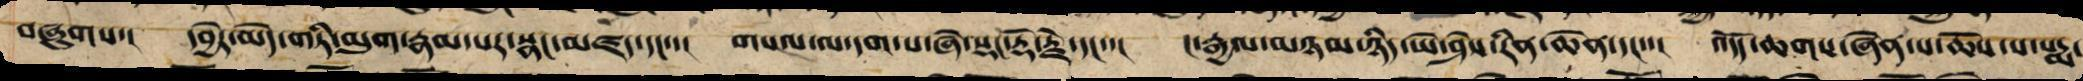བཞུགས་། དབྱེར་མེད་གཏི་མུག་རྣམ་པར་སྣང་མཛད་དང་་། གསལ་ལ་དག་པ་ཞེ་སྡང་རྡོ་རྗེ་དང་་། ང་རྒྱལ་མཉམ་ཉིད་ཡེ་ཤེས་རིན་ཆེན་དང་་། འདོད་ཆགས་ཞེན་པ་ཆོས་པ་པདྨ་
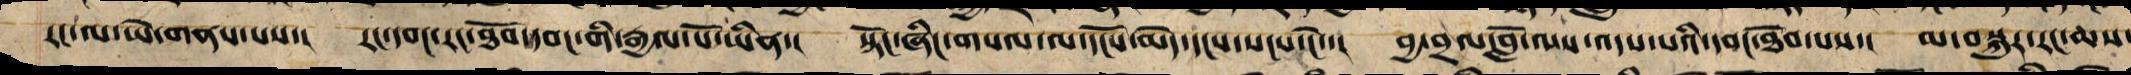རང་ལ་ཡེ་གནས་པས་། རང་དབང་རང་ཐོབ་དབང་གི་རྒྱལ་པོ་ཡིན་། སྟོང་ཞིང་གསལ་ལ་དངོས་མེད་དྭངས་སང་ངེ་་། བྱ་བྲལ་བློ་ལས་འདས་པའི་དབང་ཐོབ་པས་། མ་བསྐུར་རང་ཆས་
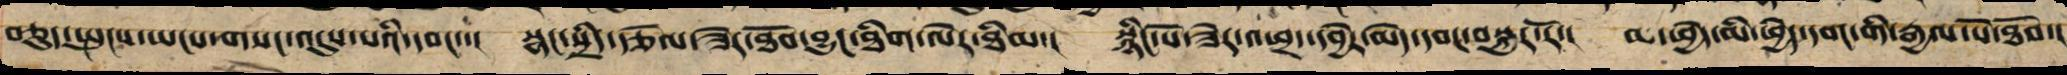བཅུད་སྤུངས་ཡངས་གསང་འདུས་པའི་དབང་་། སྣང་སྲིད་རྩོལ་ཟེར་ཐོབ་བྱུང་ཐིག་ལེར་ཐིམ་། སྙིང་པོ་ཟེར་འཕྲད་དབྱེར་མེད་དབང་བསྐུར་རོ་། མ་ཕྱེད་མི་ཕྱེད་དབང་གི་རྒྱལ་པོ་ཐོབ་།
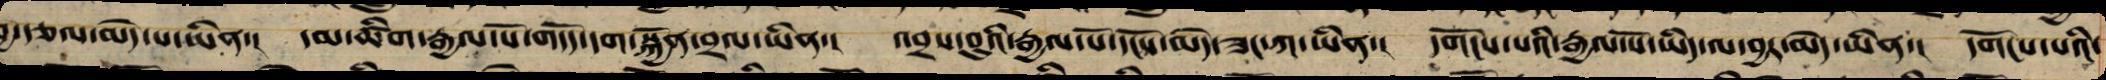བྱ་རྩལ་མེད་པ་ཡིན་། དམ་ཚིག་རྒྱལ་པོ་གདོད་དག་སྐྱོན་བྲལ་ཡིན་། འབྲས་བུའི་རྒྱལ་པོ་དངོས་མེད་ཟང་ཀ་ཡིན་། དགོངས་པའི་རྒྱལ་པོ་ཡིད་ལ་མེད་ཡིན་། དགོངས་པའི་
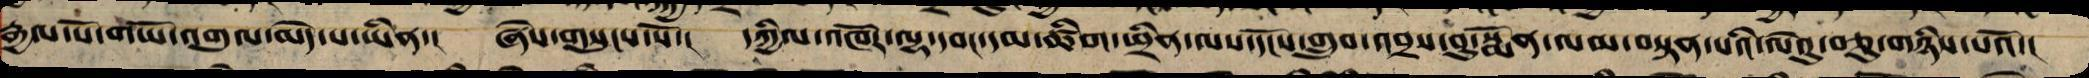རྒྱལ་པོ་ཡིད་ལ་བྱར་མེད་ཡིན་། ཞེས་གསུངས་སོ་། དཀྱིལ་འཁོར་ལྷ་དབང་དམ་ཚིག་ཕྲིན་ལས་དངོས་གྲུབ་འབྲས་བུ་སྨོན་ལམ་བསྟན་པའི་ལེའུ་སྟེ་བཅུ་གཉིས་པའོ་།།
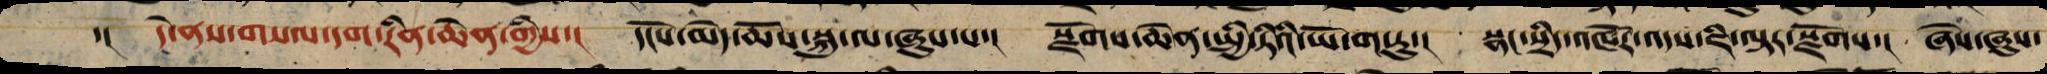་།། དེ་ནས་གསལ་དག་རིན་ཆེན་གྱིས་། དངོས་མེད་ཆོས་སྐུ་ལ་ཞུས་པ་། སྫོགས་ཆེན་སྤྱི་ཏིའི་ཡོ་ག་རུ་། སྣང་སྲིད་འཁོར་འདས་ཇི་ལྟར་སྫོགས་། ཞེས་ཞུས་
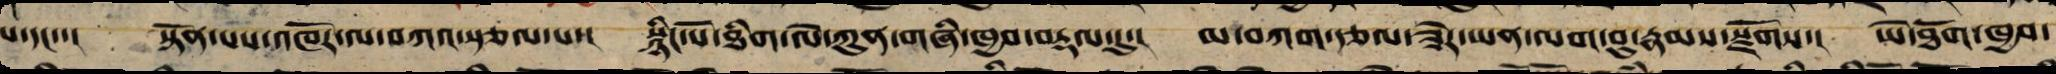པ་དང་་། སྟོན་པས་འཁོར་ལ་བཀའ་སྩལ་པ་། སྙིང་པོ་ཐིག་ལེ་ཀུན་གཞི་ཁྱབ་བརྡལ་་དུ། མ་བཀག་རྩལ་ཟེར་ཡན་ལག་བུ་རྣམས་སྫོགས་། ཡེ་ཐོག་ཁྱབ་
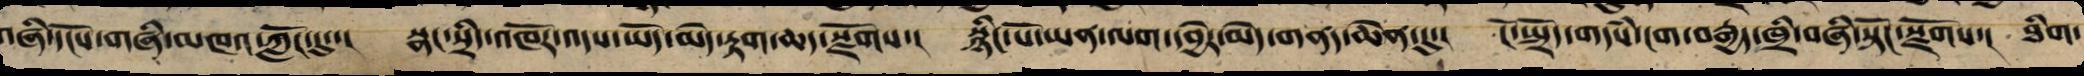གཞི་དངོས་གཞི་མཁའ་ཀློང་དུ་། སྣང་སྲིད་འཁོར་འདས་ཡོད་མེད་རྟག་ཆད་སྫོགས་། སྙིང་པོ་ཡན་ལག་དབྱེར་མེད་གནད་ཆེན་དུ་། ངོ་སྤྲོད་གདཾས་ངག་བརྒྱད་ཁྲི་བཞི་སྟོང་སྫོགས་། ཐིག་
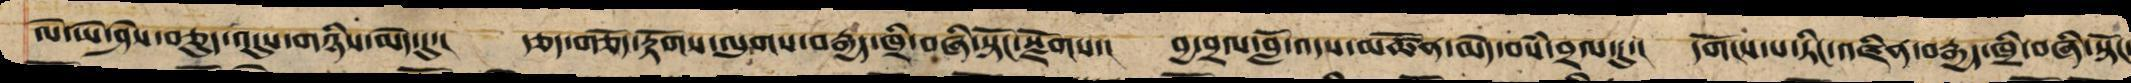ལེ་ཡེ་ཤེས་བཅུད་འདུས་གཉིས་མེད་དུ་། རྩད་གཅོད་རྟོགས་ལུགས་བརྒྱད་ཁྲི་བཞི་སྟོང་སྫོགས་། བྱ་བྲལ་བློ་འདས་མཚོན་མེད་བསཾ་བྲལ་དུ་། དགོངས་པ་ཏིང་འཛིན་བརྒྱད་ཁྲི་བཞི་སྟོང་
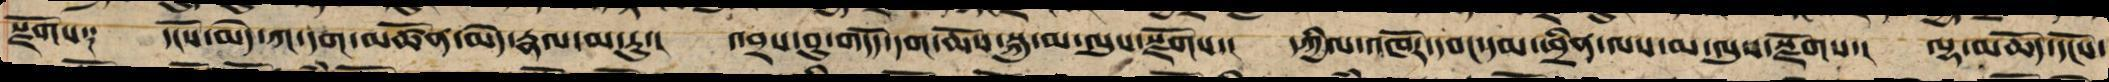སྫོགས༑ དངོས་མེད་ཀ་དག་མཚོན་མེད་རྣལ་མ་རུ་། འབྲས་བུ་གདོད་དག་ཆོས་སྐུ་མ་ལུས་སྫོགས་། དཀྱིལ་འཁོར་དབང་དམ་ཕྲིན་ལས་མ་ལུས་སྫོགས་། ལྷ་མཆོད་དངོས་
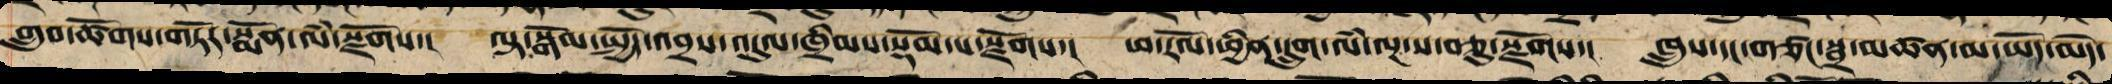གྲུབ་ཚོགས་གཏོར་སྨོན་ལཾ་སྫོགས་། ལྟ་སྒོམ་སྤྱོད་འབྲས་འདུལ་ཁྲིམས་སྡོམ་པ་སྫོགས་། ཕ་རོལ་ཕྱིན་དྲུག་ལཾ་ལྔ་ས་བཅུ་སྫོགས་། ཁྲུས་དང་གཙང་སྦྲ་མཚན་མ་ཡོད་མེད་
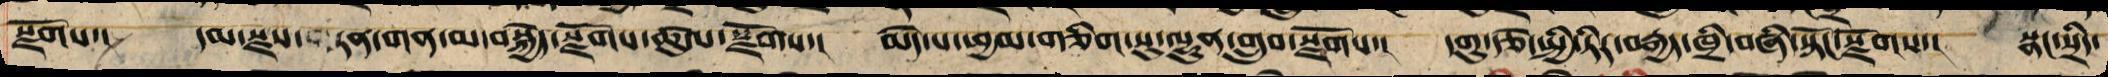སྫོགས་། དམ་སྫས་ཏན་གན་མ་བསྐྱེད་སྫོགས་ཚུལ་སྫོགས་། མེད་པ་ཕྱལ་པ་གཅིག་པུ་ལྷུན་གྲུབ་གསྫོས་། དགུ་རྩེ་སྤྱི་ཏིར་བརྒྱད་ཁྲི་བཞི་སྟོང་སྫོགས་། སྣང་སྲིད་
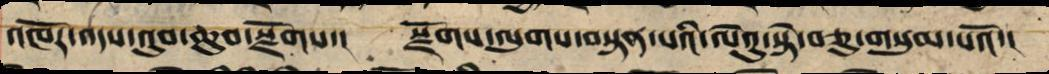འཁོར་འདས་འུབ་ཆུབ་སྫོགས་། སྫོགས་ལུགས་བསྟན་པའི་ལེའུ་སྟེ་བཅུ་གསུམ་པའོ་།།
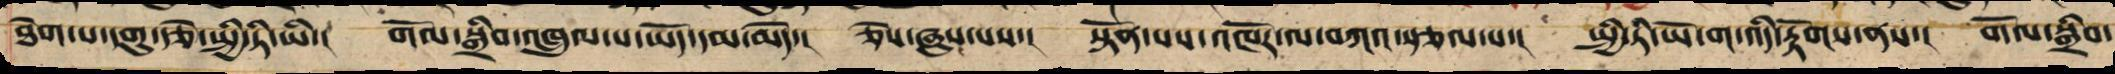ཐེག་པ་དགུ་རྩེ་སྤྱི་ཏི་ཡི་། གོལ་སྒྲིབ་འཁྲུལ་པ་ཡོད་དམ་མེད་། ཅེས་ཞུས་པ་དང་། སྟོན་པས་འཁོར་ལ་བཀའ་སྩལ་པ་། སྤྱི་ཏི་ཡོ་ག་འདི་རྟོགས་ན་། གོལ་སྒྲིབ་
